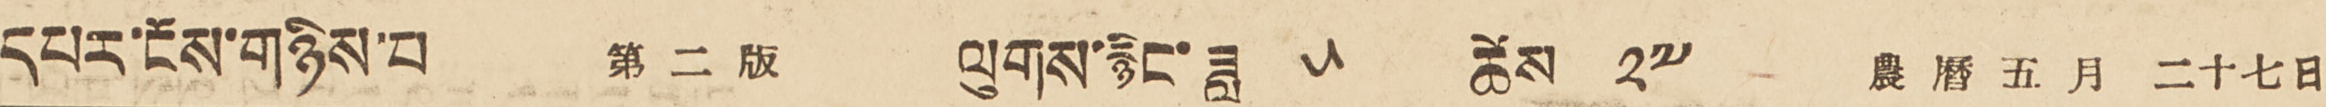དཔར་ངོས་གཉིས་པ 第 二 版 ལུགས་རྙིང་ཟླ ༥ ཚེས ༢༧ 農 曆 五 月 二十七日
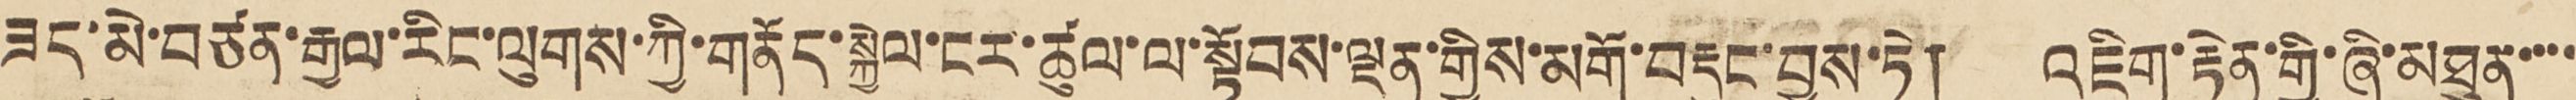ཟད་མེ་བཙན་རྒྱལ་རིང་ལུགས་ཀྱི་ནོད་སྐྱེལ་ངར་ཚུལ་ལ་སྟོབས་ལྡན་གྱིས་མགོ་བརྡུང་བྱས་ཏེ། འཇིག་རྟེན་གྱི་ཞི་མཐུན་་་་
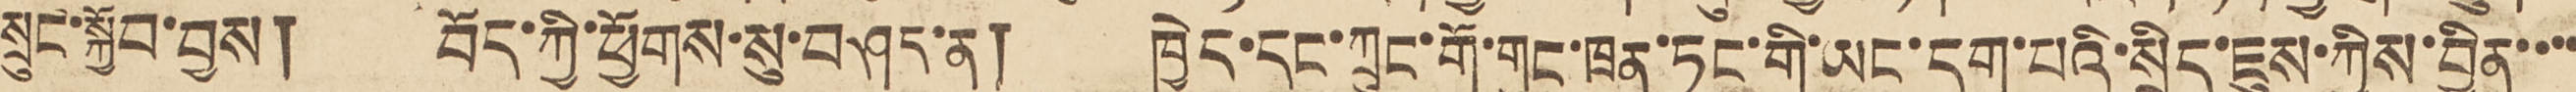སྲུང་སྐྱོབ་བྱས། བོད་ཀྱི་ཕྱོགས་སུ་བཤད་ན། ཁྱེད་དང་ཀྲུང་གོ་གུང་ཁྲན་ཏང་གི་ཡང་དག་པའི་སྲིད་ཇུས་ཀྱིས་བྱིན་་་་
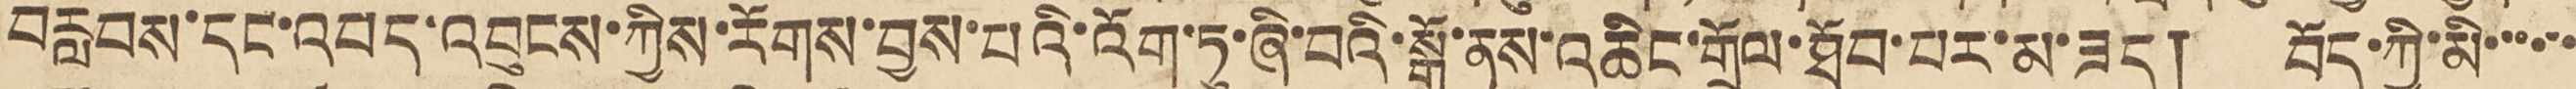བརླབས་དང་འབད་འབུངས་ཀྱིས་རོགས་བྱས་པའི་འོག་ཏུ་ཞི་བའི་སྒོ་ནས་འཆིང་གྲོལ་ཐོབ་པར་མ་ཟད། བོད་ཀྱི་མི་་་་་་
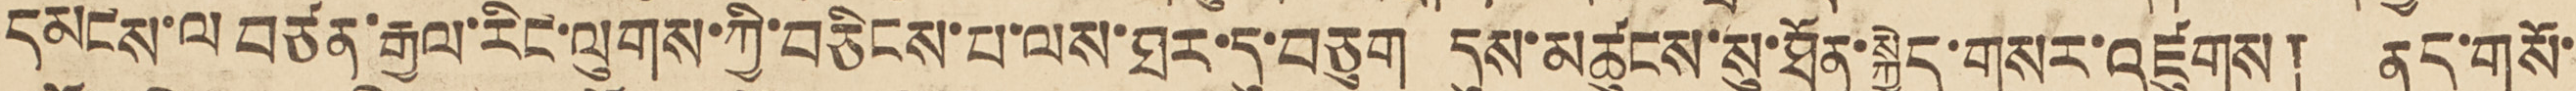དམངས་ལ བཙན་རྒྱལ་རིང་ལུགས་ཀྱི་བཅིངས་པ་ལས་ཐར་དུ་བཅུག དུས་མཚུངས་སུ་ཐོན་སྐྱེད་གསར་འཛུགས། ནད་གསོ་
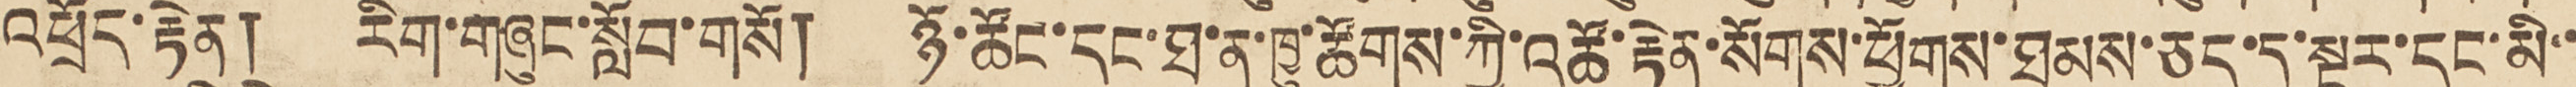འཕྲོད་རྟེན། རིག་གཞུང་སློབ་གསོ། ཉོ་ཚོང་དང་ཐ་ན་ཁྱུ་ཚོགས་ཀྱི་འཚོ་རྟེན་སོགས་ཕྱོགས་ཐམས་ཅད་དུ་སྔར་དང་མི་་
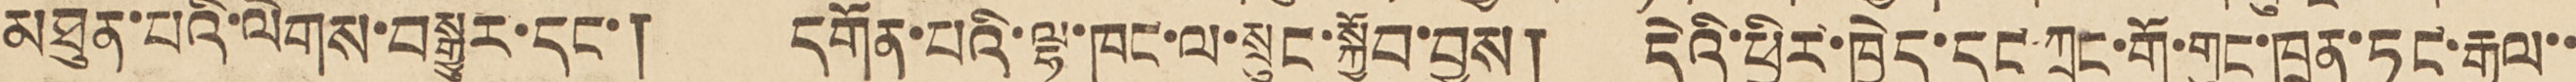མཐུན་པའི་ལེགས་བསྒྱུར་དང་། དགོན་པའི་ལྷ་ཁང་ལ་སྲུང་སྐྱོབ་བྱས། དེའི་ཕྱིར་ཁྱེད་དང་ཀྲུང་གོ་གུང་ཁྲན་ཏང་རྒྱལ་་
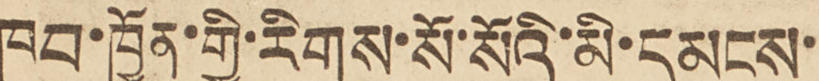ཁབ་ཁྱོན་གྱི་རིགས་སོ་སོའི་མི་དམངས་
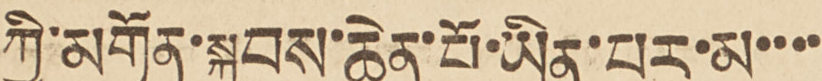ཀྱི་མགོན་སྐྱབས་ཆེན་པོ་ཡིན་པར་མ་་་་
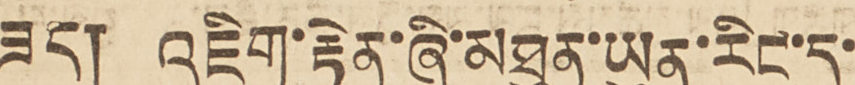ཟད། འཇིག་རྟེན་ཞི་མཐུན་ཡུན་རིང་དུ་
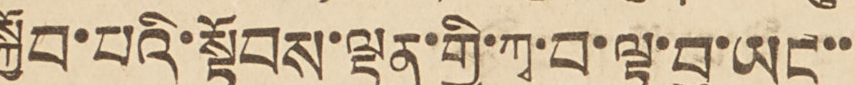སྐྱོབ་པའི་སྟོབས་ལྡན་གྱི་ཀྭ་བ་ལྟ་བུ་ཡང་་
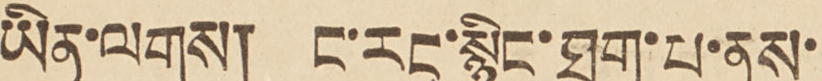ཡིན་ལགས། ང་རང་སྙིང་ཐག་པ་ནས་
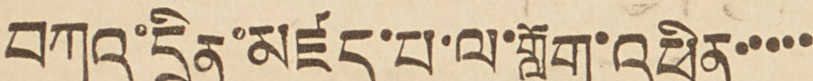བཀའ་དྲིན་མཛད་པ་ལ་གློག་འཕྲིན་་་་་
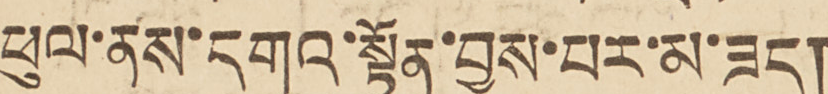ཕུལ་ནས་དགའ་སྟོན་བྱས་པར་མ་ཟད།
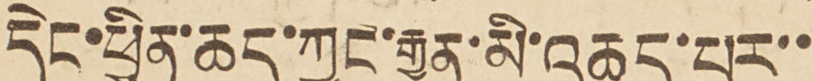དེང་ཕྱིན་ཆད་ཀྱང་རྒྱུན་མི་འཆད་པར་་
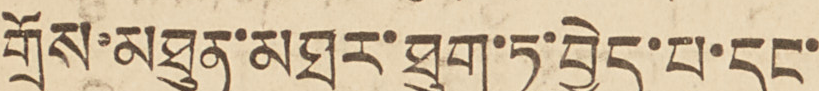གྲོས་མཐུན་མཐར་ཐུག་ཏུ་བྱེད་པ་དང་
